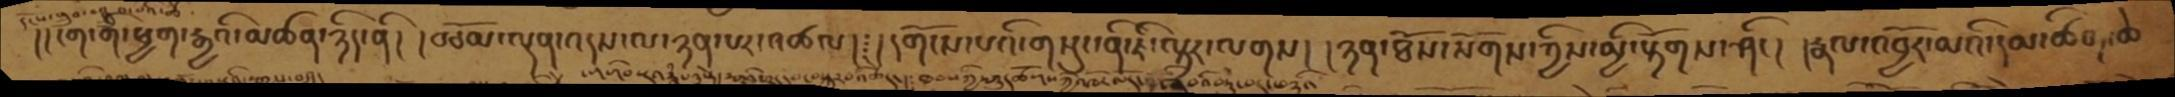།།ངག་གི་ཕྱག་རྒྱའི་མཚན་ཉིད་ནི། །བཅོམ་ལྡན་འདས་ལ་ཉན་པར་འཚལ། ༴།དགོངས་པའི་གསུང་ནི་ཇི་ལྟར་ལགས། །ཉན་ཐོས་སོགས་ཀྱིས་མྱི་རྟོགས་ཤིང། །རྣལ་འབྱོར་མའི་དམ་ཚིག་ཆེ
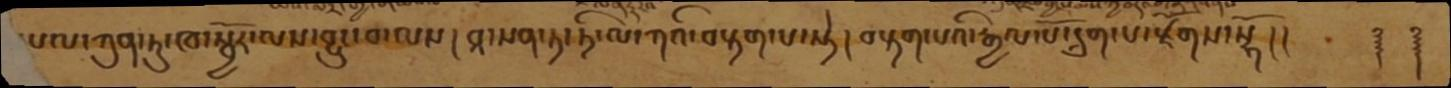དཔལ་ཀུན་ཏུ་ཁ་སྦྱོར་ལས་བྱུང་བ་ལས། བཱ་སན་ཏ་ཏི་ལ་ཀའི་བརྟག་པ་སྟེ། བརྟག་པའི་རྒྱལ་པོ་དྲུག་པ་རྫོགས་སྷོ།།   ༈  ༈
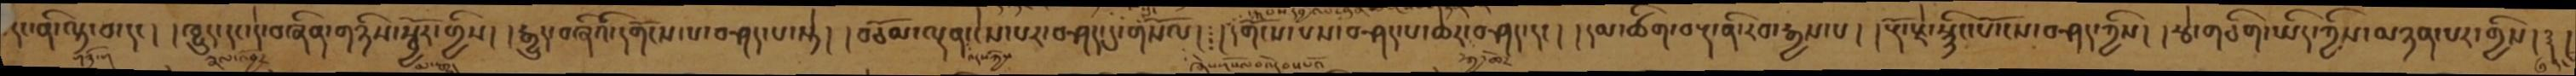དང་ནི་ལྟ་བ་དང། །ཁྱུད་དང་དེ་བཞིན་གཉིས་སྦྱོར་གྱིས། །རྒྱུད་བཞིའི་དགོངས་པ་བཤད་པ་སྟེ། །བཅོམ་ལྡན་ངེས་པར་བཤད་དུ་གསོལ། ༴ །དགོངས་པས་བཤད་པ་ཆེར་བཤད་དང། །དམ་ཚིག་བརྡ་ནི་རབ་རྒྱས་པ། །རྡོ་རྗེ་སྙིང་པོ་ངས་བཤད་ཀྱིས། །རྩེ་གཅིག་ཡིད་ཀྱིས་མཉན་པར་གྱིས།༈།
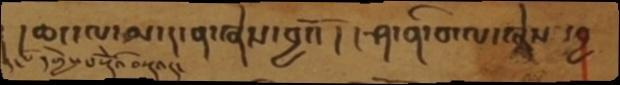། །ཆང་ལ་མ་ད་ན་ཞེས་བྱའོ། །ཤ་ནི་བ་ལ་ཞེས་བྱ
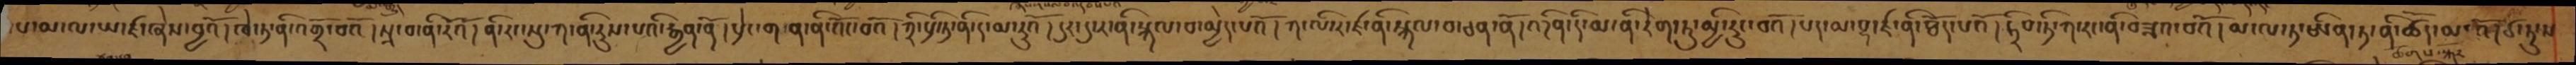ས་མ་ལ་ཡ་ཛ་ཞེས་བྱའོ། ཁེ་ཏ་ནི་འགྲོ་བའོ། པྲ་བ་ནི་རོའོ། ནི་རང་སུ་ཀ་ནི་རུས་པའི་རྒྱན་ནོ། པྲེང་ག་ན་ནི་འོང་བའོ། ཀྲི་པྲི་ཏ་ནི་ར་མ་རུའོ། དུར་དུ་ར་ནི་སྐལ་བ་མྱེད་པའོ། ཀ་ལི་ར་ཛ་ནི་སྐལ་བ་ཅན་ནོ། འདིན་དི་མ་ནི་རེག་ཏུ་མྱི་རུང་བའོ། པད་མ་བྷ་ཛ་ནི་ཐོད་པའོ། ཏྲིབ་ཏི་ཀ་རང་ནི་བཟའ་བའོ། མ་ལ་ཏ་ཨིན་ཏ་ནི་ཚད་མ་འོ། ཙ་ཏུ་ས
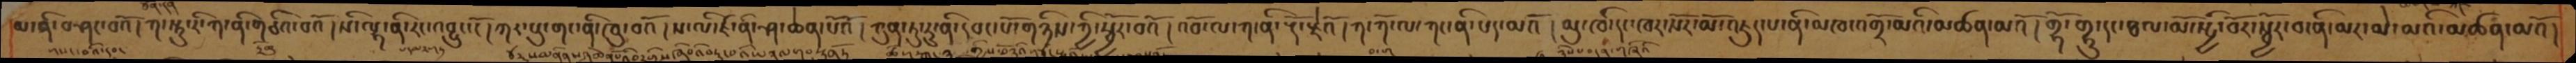མ་ནི་བཤང་བའོ། ཀ་སྟུ་རི་ཀ་ནི་གཅིའ་པའོ། སི་ལྷ་ནི་རང་འབྱུང་ངོ། ཀར་པུ་གང་ནི་ཁུ་བའོ། ས་ལི་ཛ་ནི་ཤ་ཆེན་པོའོ། ཀུན་ཏུ་རུ་ནི་དབང་པོ་གཉིས་ཀྱི་སྦྱོར་བའོ། འབོ་ལ་ཀ་ནི་རྡོ་རྗེའོ། ཀ་ཀོ་ལ་ཀང་ནི་པད་མའོ། མུ་ཁི་དང་ཁར་སོར་མོ་འཛུད་པ་ནི་མཁ་འགྲོ་མའི་མཚན་མའོ། གྷོ་གྷ་དང་ཐལ་མོ་སྤྱི་བོར་སྦྱོར་བ་ནི་མར་མེ་མའི་མཚན་མའོ།
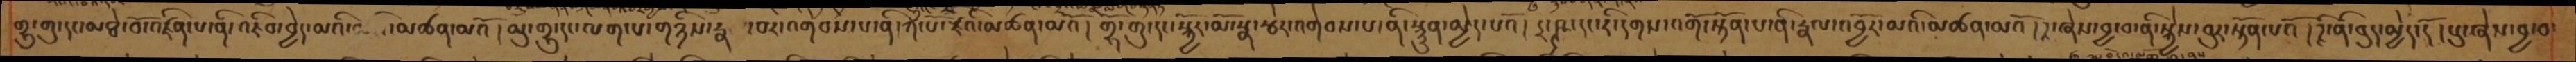གྷུ་གུ་དང་མཐེ་བོ་འཛིན་པ་ནི་འཇིབ་བྱེད་མའི་མཚན་མའོ། མུ་གྷུ་དང་ལག་པ་གཉིས་རྣ་བར་འགབས་པ་ནི་ཀ་པོ་རྗེའི་མཚན་མའོ། གྷོ་གུ་དང་སྐྱོར་མོ་སྣ་རྩེར་འགེབས་པ་ནི་སྙུན་མྱེད་པའོ། དྲ་ཥྚ་དང་རི་དགས་འགོ་སྟོན་པ་ནི་རྣལ་འབྱོར་མའི་མཚན་མའོ། དྭ་ཞེས་བྱ་བ་ནི་སྐྱེས་བུར་སྟོན་པའོ། དཱི་ནི་བུད་མྱེད་དོ། སུ་ཞེས་བྱ་བ་
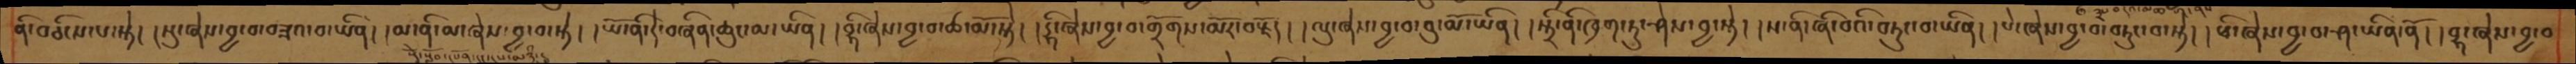ནི་བཅིངས་པ་སྟེ། །སུ་ཞེས་བྱ་བ་བཟའ་བ་ཡིན། །མ་ནི་མ་ཞེས་བྱ་བ་སྟེ། །ཡོ་ནི་དེ་བཞིན་ཆུང་མ་ཡིན། །བྷི་ཞེས་བྱ་བ་ཚ་མོ་སྟེ། །དྷི་ཞེས་བྱ་བ་གྲོགས་མོར་བརྗོད། །ལུ་ཞེས་བྱ་བ་བུ་མོ་ཡིན། །སྟྲི་ནི་ཁྲག་ཏུ་ཤེས་བྱ་སྟེ། །ས་ནི་ཞི་བའི་བཏང་བ་ཡིན། །པེ་ཞེས་བྱ་བ་བཏང་བ་སྟེ། །ཕི་ཞེས་བྱ་བ་ཤང་ཡིན་ནོ། །བྷ་ཞེས་བྱ་བ
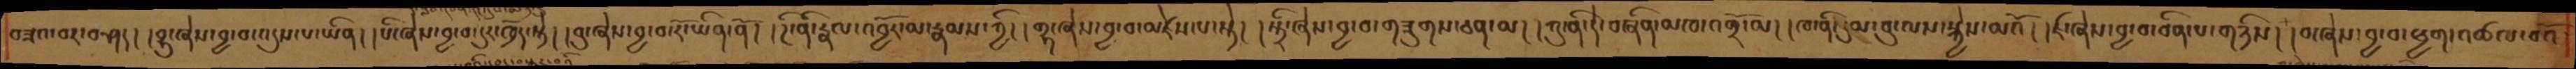བཟའ་བར་བཤད། །བྷུ་ཞེས་བྱ་བ་འདུས་པ་ཡིན། །པི་ཞེས་བྱ་བ་དུར་ཁྲོད་སྟེ། །བུ་ཞེས་བྱ་བ་རོ་ཡིན་ནོ། །ཌི་ནི་རྣལ་འབྱོར་མ་རྣམས་ཀྱི། །གྷ་ཞེས་བྱ་བ་མཛེས་པ་སྟེ། །སྟྲི་ཞེས་བྱ་བ་གཟུགས་ཅན་མ། །ཀུ་ནི་དེ་བཞིན་མཁ་འགྲོ་མ། །ཁ་ནི་དུམ་བུ་ལས་སྐྱེས་མའོ། །ཛ་ཞེས་བྱ་བ་བིན་པ་གཉིས། །བ་ཞེས་བྱ་བ་ཕྱག་འཚལ་བའོ
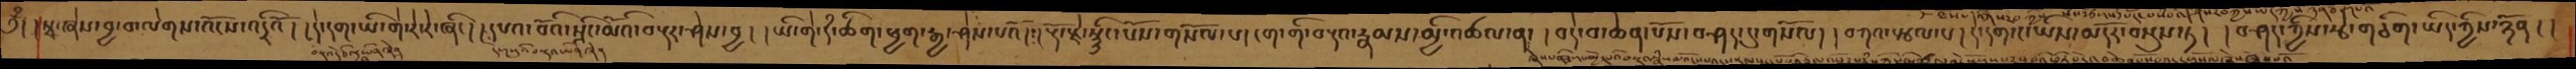༄ྃ། །སྣ་ཞེས་བྱ་བ་ལེགས་འོངས་འདྲིའོ། །དེ་དག་ཡི་གེ་རེ་རེ་ཞིང། །དཔའ་བོའི་སྲིང་མོའི་བརྡར་ཤེས་བྱ། །ཡི་གེ་དཾ་ཚིག་ཕྱག་རྒྱ་ཤེས་པའོ། །རྡོ་རྗེ་སྙིང་པོས་གསོལ་པ། །གང་གི་བརྡའ་རྣམས་མྱི་འཚལ་ན། །བདེ་བ་ཆེན་པོས་བཤད་དུ་གསོལ། །བཀའ་སྩལ་པ། །དེ་དག་ང་ཡིས་མདོར་བསྡུས་ཏེ། །བཤད་ཀྱིས་རྩེ་གཅིག་ཡིད་ཀྱིས་ཉོན། །
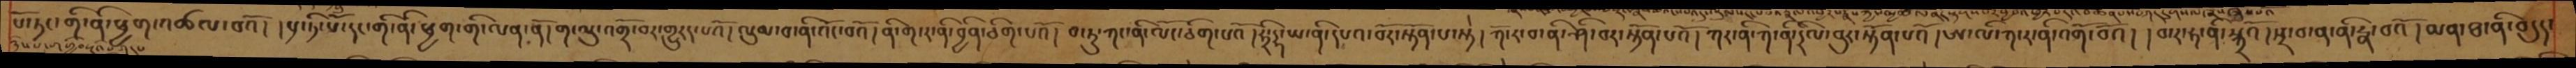པོ་ཏང་གི་ནི་ཕྱག་འཚལ་བའོ། །པྲ་ཏི་པོ་དང་གི་ནི་ཕྱག་གི་ལན་ནོ། ག་ལུ་འགྲོ་བར་གྱུརད་པའོ། ལུམ་བ་ནི་འོང་བའོ། ནི་ག་ར་ནི་བྱིན་ཅིག་པའོ། བ་ཏུ་ཀང་ནི་ལོང་ཅིག་པའོ། ཧྲི་དྷ་ཡ་ནི་དཔའ་བོར་སྟོན་པ་སྟེ། ཀོ་ར་བ་ནི་ཤི་བར་སྟོན་པའོ། ཀར་ནི་ཀ་ནི་དྲིལ་བུར་སྟོན་པའོ། ཨ་ལི་ཀ་ར་ནི་འགོ་བའོ། །བ་ར་ནི་སྐྲའོ། སྲ་བ་ན་ནི་རྣ་བའོ།མན་ཐ་ནི་བདུད་
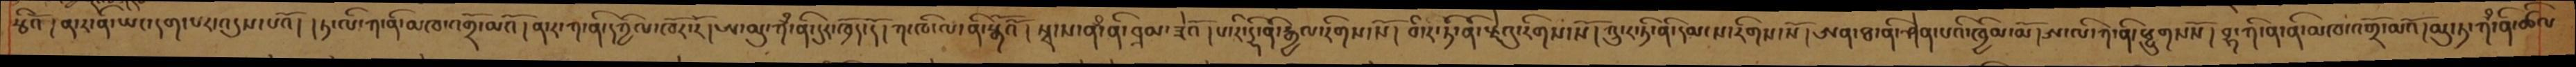རྩིའ། ན་ར་ནི་ཡང་དག་པར་འདུས་པའོ། །ཏ་ལི་ཀ་ནི་མཁ་འགྲོ་མའོ། ན་ར་ཀ་ནི་དཀྱིལ་ཁོར་རོ། ཨ་མུ་ཀྃ་ནི་དུར་ཁྲོད་དོ། ཀ་ཁི་ལ་ནི་སྒོའོ། སྭ་ས་ནྃ་ནི་བྲམ་ཟེའོ། པ་ར་དྷི་ནི་རྒྱལ་རིགས་སོ། བི་ར་ཏི་ནི་རྗེའུ་རིགས་སོ། ཀུ་ར་ཏི་ནི་དམ་ས་རིགས་སོ། ཨན་ཐ་ནི་ཤེན་པའི་ཁྱིམ་མོ། ཨ་ལི་ཀ་ནི་ཕྱུགསསོ། གྷ་ཀི་ན་ནི་མཁ་འགྲོ་མའོ། མུ་ཏ་ཀྃ་ནི་ཚལ
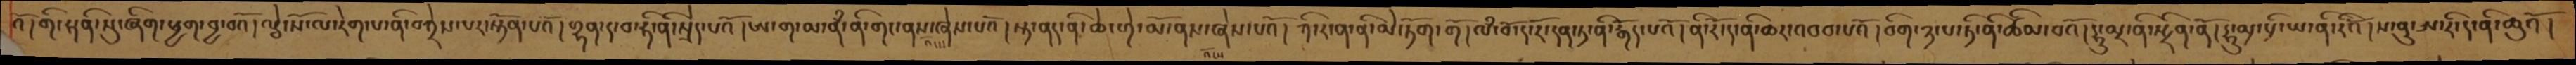འོ།གི་ཧ་ནི་སུ་ཞིག་ཕྱག་བྱ་བའོ། ལྕེ་སོ་ལ་རེག་པ་ནི་བཀྲེས་པར་སྟོན་པའོ། གྷན་ད་བ་ཧི་ནི་སྲེད་པའོ། ཨ་ག་མ་ནྃ་ནི་གང་ནས་ཞེས་པའོ། སྟ་ནད་ནི་ཆེ་གེ་མོ་ནས་ཞེས་པའོ། ཀི་ར་ན་ནི་མེ་ཏོག་གོ། ལྃ་བོ་ད་རོ་དན་ཏ་ནི་རྒོད་པའོ། ནི་རོ་ད་ནི་ཆར་འབབ་པའོ། བིག་ཉ་པ་ཏི་ནི་ཚིམ་བའོ། དྷུ་མྲ་ནི་སྤྲིན་ནོ། དྷུ་མ་པི་ཡ་ནི་རིའོ། ས་ནུ་ཨ་རི་ད་ནི་ཆུའོ།
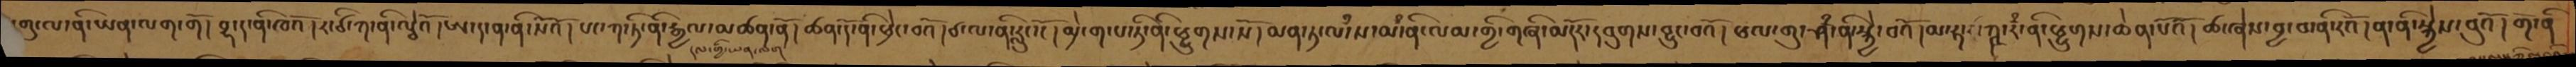དགུ་ལ་ནི་ཡན་ལག་གོ། བྷ་ད་ནི་ཁའོ། ར་ཙ་ཀ་ནི་ལྕེའོ། ཨ་ད་ན་ནི་སོའོ། པང་ཀ་ནི་རྒྱལ་མཚན་ནོ། ཚན་དོ་ནི་ཕྲེང་བའོ། ཙ་ལ་ནི་རླུང་ངོ། མྲེ་ག་པ་ཏི་ནི་ཕྱུགས་སོ། མན་ཏ་ལྃ་ས་མྃ་ནི་ལམ་གྱི་གཞི་མདོར་དབུགས་བྱུང་བའོ། ཕལ་གུ་ཤྃ་ནི་སྐྱེ་བའོ། མ་ཧ་ཀྵ་རྃ་ནི་ཕྱུགས་ཆེན་པོའོ། ཚ་ཞེས་བྱ་བ་ནི་རའོ། ན་ནི་སྐྱེས་བུའོ། གོ་ནི
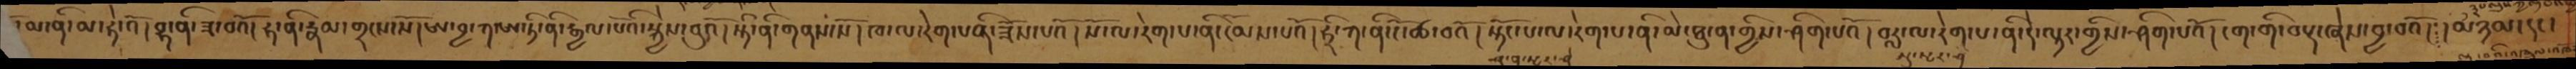མ་ནི་མ་ཧེ་འོ།བྷ་ནི་ཟ་བའོ།ཧ་ནི་རྣམ་གྲངས་སོ།ཨ་བྱ་ཀ་ཨ་ཏི་ནི་རྒྱལ་པོའི་སྐྱེས་བུའོ།སྟི་ནི་གནས་སོ། ཁ་ལ་རེག་པ་ནི་ཟོས་པའོ། སོ་ལ་རེག་པ་ནི་ངོམས་པའོ།ཧྲི་ཀ་ནི་ངོ་ཚ་བའོ།སྟོང་པ་ལ་རེག་པ་ནི་མེ་ཐུ་ན་གྱིས་ཤིག་པའོ། བརླ་ལ་རེག་པ་ནི་དེ་ལྟར་གྱིས་ཤིག་པའོ། ངག་གི་བརྡ་ཞེས་བྱ་བའོ། མཉམ་དང་
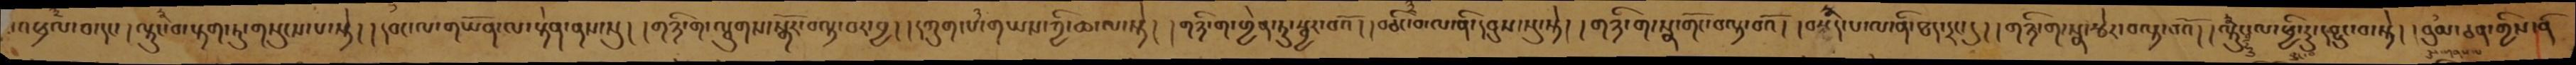འཕྲལ་བ་དང་ ། ལྟུང་བ་རྟག་ཏུ་གསུངས་པ་སྟེ། །དབང་ལ་གཡོན་ལ་རྟེན་ནས་སུ། །གཉི་ག་ལྕུགས་སྒོར་བལྟ་བར་བྱ། །དཀུག་པའི་གཡས་ཀྱི་ཆ་ལ་སྟེ། །གཉི་ག་གྱེན་ཏུ་སྦྱར་བའོ། །བཅིང་བ་ལ་ནི་དབུས་སུ་སྟེ། །གཉི་ག་སྣ་གོང་བལྟ་བའོ། །བསྐྱིད་པ་ལ་ནི་ཐད་དྲང་དུ། །གཉི་ག་སྣ་རྩེར་བལྟ་བའོ། །ལྟུང་ལ་ཕྱི་རུ་དབྱུང་བ་སྟེ། །བུམ་ཅན་གྱིས་ནི
